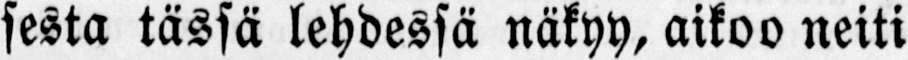sesta tässä lehdessä näkyy, aikoo neiti
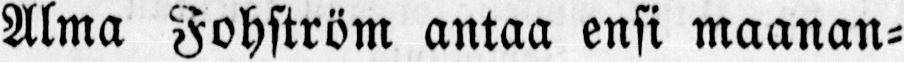Alma Fohström antaa ensi maanan-
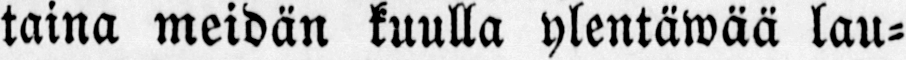taina meidän kuulla ylentäwää lau-
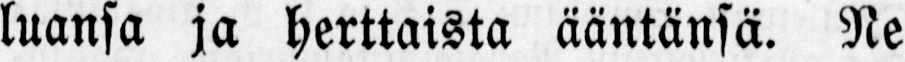luansa ja herttaista ääntänsä. Ne
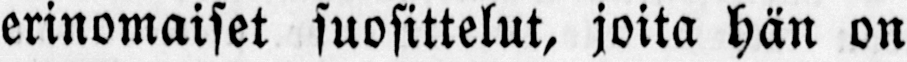erinomaiset suosittelut, joita hän on
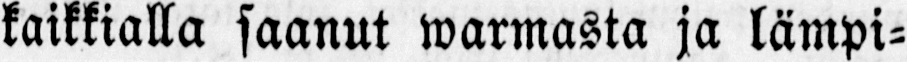kaikkialla saanut warmasta ja lämpi-
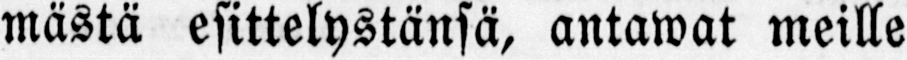mästä esittelystänsä, antawat meille
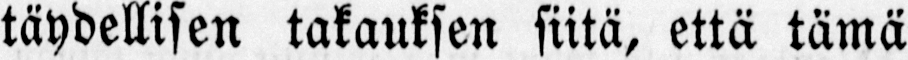täydellisen takauksen siitä, että tämä
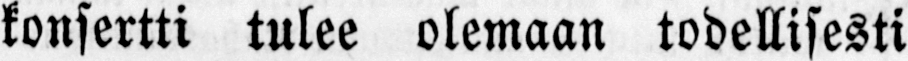konsertti tulee olemaan todellisesti
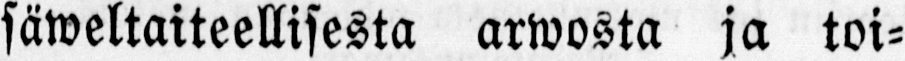säweltaiteellisesta arwosta ja toi-
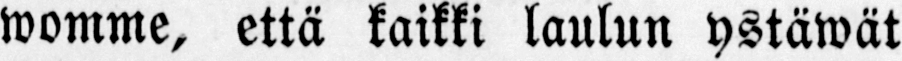womme, että kaikki laulun ystäwät
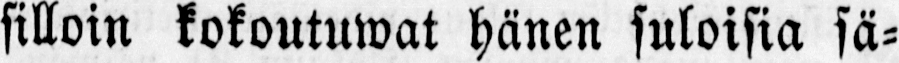silloin kokoutuwat hänen suloisia sä-
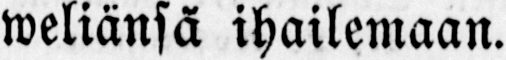weliänsä ihailemaan.
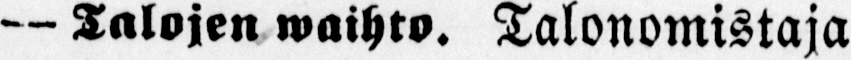— Talojen waihto. Talonomistaja
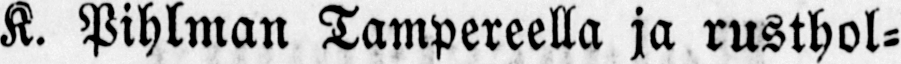K. Pihlman Tampereella ja rusthol-
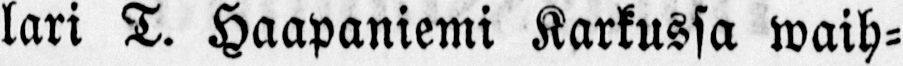lari T. Haapaniemi Kurkussa waih-
